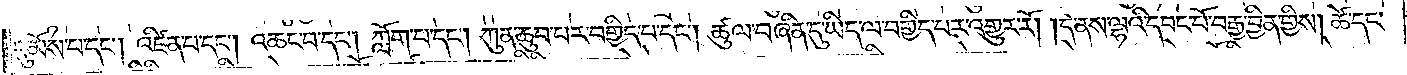དུ་མོས་པ་དང༌། འཛིན་པ་དང༌། འཆང་བ་དང༌། ཀློག་པ་དང༌། ཀུན་ཆུབ་པར་བགྱིད་པ་དང༌། ཚུལ་བཞིན་དུ་ཡིད་ལ་བགྱིད་པར་འགྱུར་རོ། །དེ་ནས་ལྷའི་དབང་པོ་བརྒྱ་བྱིན་གྱིས། ཚེ་དང་
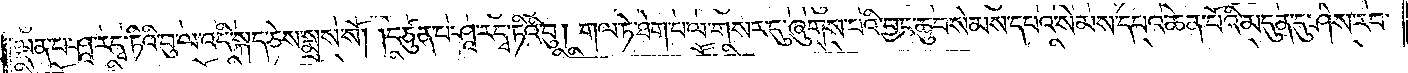ལྡན་པ་ཤཱ་རདྭ་ཏིའི་བུ་ལ་འདི་སྐད་ཅེས་སྨྲས་སོ། །བཙུན་པ་ཤཱ་རདྭ་ཏིའི་བུ། གལ་ཏེ་ཐེག་པ་ལ་གསར་དུ་ཞུགས་པའི་བྱང་ཆུབ་སེམས་དཔའ་སེམས་དཔའ་ཆེན་པོའི་མདུན་དུ་ཤེས་རབ་
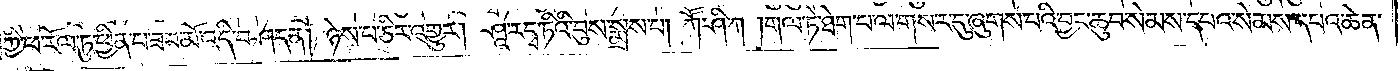ཀྱི་ཕ་རོལ་ཏུ་ཕྱིན་པ་ཟབ་མོ་འདི་བཤད་ན། ཉེས་པ་ཅིར་འགྱུར། ཤཱ་རདྭ་ཏིའི་བུས་སྨྲས་པ། ཀཽ་ཤི་ཀ། གལ་ཏེ་ཐེག་པ་ལ་གསར་དུ་ཞུགས་པའི་བྱང་ཆུབ་སེམས་དཔའ་སེམས་དཔའ་ཆེན་
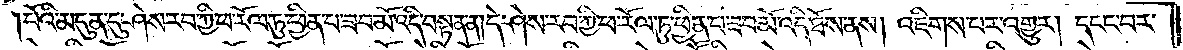པོའི་མདུན་དུ་ཤེས་རབ་ཀྱི་ཕ་རོལ་ཏུ་ཕྱིན་པ་ཟབ་མོ་བསྟན་ན། དེ་ཤེས་རབ་ཀྱི་ཕ་རོལ་ཏུ་ཕྱིན་པ་ཟབ་མོ་འདི་ཐོས་ནས། འཇིགས་པར་འགྱུར། དངང་བར་
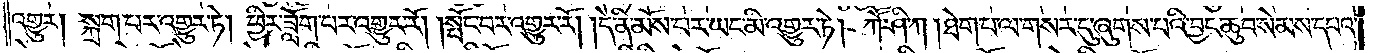འགྱུར། སྐྲག་པར་འགྱུར་ཏེ། ཕྱིར་ཟློག་པར་འགྱུར་རོ། །སྤོང་བར་འགྱུར་རོ། །དེ་ནི་མོས་པར་ཡང་མི་འགྱུར་ཏེ། ཀཽ་ཤི་ཀ། ཐེག་པ་ལ་གསར་དུ་ཞུགས་པའི་བྱང་ཆུབ་སེམས་དཔའ་
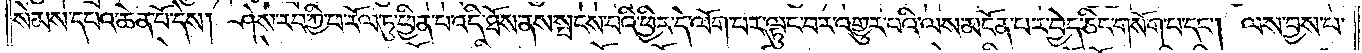སེམས་དཔའ་ཆེན་པོ་དེས། ཤེས་རབ་ཀྱི་ཕ་རོལ་ཏུ་ཕྱིན་པ་འདི་ཐོས་ནས་སྤངས་པའི་ཕྱིར་དེ་ལོག་པར་ལྟུང་བར་འགྱུར་བའི་ལས་མངོན་པར་བྱེད་ཅིང་སོགས་པ་དང༌། ལས་བྱས་པ་
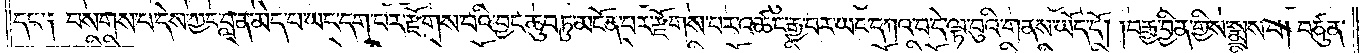དང་༑ བསགས་པ་དེས་ཀྱང་བླ་ན་མེད་པ་ཡང་དག་པར་རྫོགས་པའི་བྱང་ཆུབ་ཏུ་མངོན་པར་རྫོགས་པར་འཚང་རྒྱ་བར་ཡང་དཀའ་བ་དེ་ལྟ་བུའི་གནས་ཡོད་དོ། །བརྒྱ་བྱིན་གྱིས་སྨྲས་པ། བཙུན་
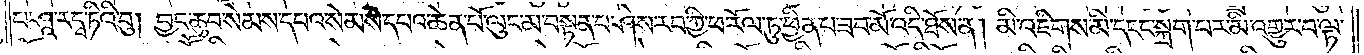པ་ཤཱ་ར་དྭ་ཏིའི་བུ། བྱང་ཆུབ་སེམས་དཔའ་སེམས་དཔའ་ཆེན་པོ་ལུང་མ་བསྟན་པ་ཤེས་རབ་ཀྱི་ཕ་རོལ་ཏུ་ཕྱིན་པ་ཟབ་མོ་འདི་ཐོས་ན། མི་འཇིགས་མི་དངང་སྐྲག་པར་མི་འགྱུར་བ་ལྟ་
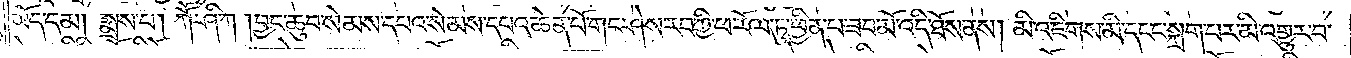ཡོད་དམ། སྨྲས་པ། ཀཽ་ཤི་ཀ། བྱང་ཆུབ་སེམས་དཔའ་སེམས་དཔའ་ཆེན་པོ་གང་ཤེས་རབ་ཀྱི་ཕ་རོལ་ཏུ་ཕྱིན་པ་ཟབ་མོ་འདི་ཐོས་ནས། མི་འཇིགས་མི་དངང་སྐྲག་པར་མི་འགྱུར་བ་
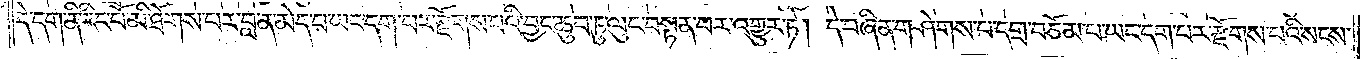དེ་དག་ནི་རིང་པོ་མི་ཐོགས་པར་བླ་ན་མེད་པ་ཡང་དག་པར་རྫོགས་པའི་བྱང་ཆུབ་ཏུ་ལུང་བསྟན་པར་འགྱུར་ཏེ། དེ་བཞིན་གཤེགས་པ་དགྲ་བཅོམ་པ་ཡང་དག་པར་རྫོགས་པའི་སངས་
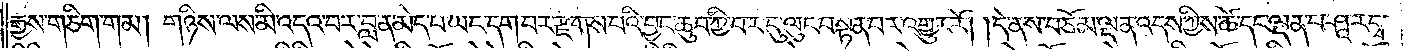རྒྱས་གཅིག་གམ། གཉིས་ལས་མི་འདའ་བར་བླ་ན་མེད་པ་ཡང་དག་པར་རྫོགས་པའི་བྱང་ཆུབ་ཀྱི་བར་དུ་ལུང་བསྟན་པར་འགྱུར་རོ། །དེ་ནས་བཅོམ་ལྡན་འདས་ཀྱིས་ཚེ་དང་ལྡན་པ་ཤཱ་ར་དྭ་
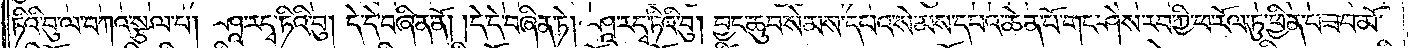ཏིའི་བུ་ལ་བཀའ་སྩལ་པ། ཤཱ་ར་དྭ་ཏིའི་བུ། དེ་དེ་བཞིན་ནོ། །དེ་དེ་བཞིན་ཏེ། ཤཱ་ར་དྭ་ཏིའི་བུ། བྱང་ཆུབ་སེམས་དཔའ་སེམས་དཔའ་ཆེན་པོ་གང་ཤེས་རབ་ཀྱི་ཕ་རོལ་ཏུ་ཕྱིན་པ་ཟབ་མོ་
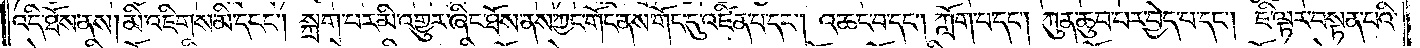འདི་ཐོས་ནས། མི་འཇིགས་མི་དངང༌། སྐྲག་པར་མི་འགྱུར་ཞིང་ཐོས་ནས་ཀྱང་གོང་ནས་གོང་དུ་འཛིན་པ་དང༌། འཆང་བ་དང༌། ཀློག་པ་དང༌། ཀུན་ཆུབ་པར་བྱེད་པ་དང༌། ཇི་ལྟར་བསྟན་པའི་
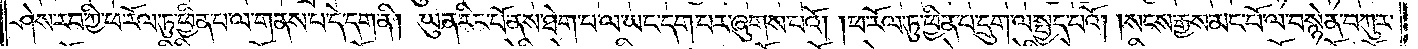ཤེས་རབ་ཀྱི་ཕ་རོལ་ཏུ་ཕྱིན་པ་ལ་གནས་པ་དེ་དག་ནི། ཡུན་རིང་པོ་ནས་ཐེག་པ་ལ་ཡང་དག་པར་ཞུགས་པའོ། །ཕ་རོལ་ཏུ་ཕྱིན་པ་དྲུག་ལ་སྤྱད་པའོ། །སངས་རྒྱས་མང་པོ་ལ་བསྙེན་བཀུར་
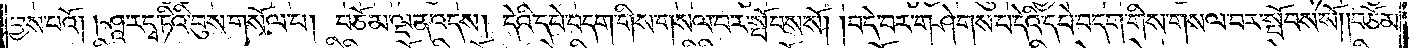བྱས་པའོ། །ཤཱ་ར་དྭ་ཏིའི་བུས་གསོལ་པ། བཅོམ་ལྡན་འདས། དེའི་དཔེ་བདག་གིས་གསལ་བར་སྤོབས་སོ། །བདེ་བར་གཤེགས་པ་དེའི་དཔེ་བདག་གིས་གསལ་བར་སྤོབས་སོ། །བཅོམ་
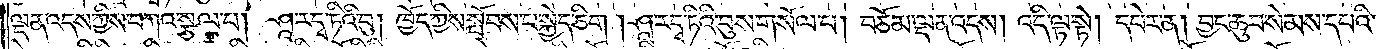ལྡན་འདས་ཀྱིས་བཀའ་སྩལ་པ། ཤཱ་ར་དྭ་ཏིའི་བུ། ཁྱོད་ཀྱིས་སྤོབས་པ་སྐྱེད་ཅིག །ཤཱ་ར་དྭ་ཏིའི་བུས་གསོལ་པ། བཅོམ་ལྡན་འདས། འདི་ལྟ་སྟེ། དཔེར་ན། བྱང་ཆུབ་སེམས་དཔའི་
